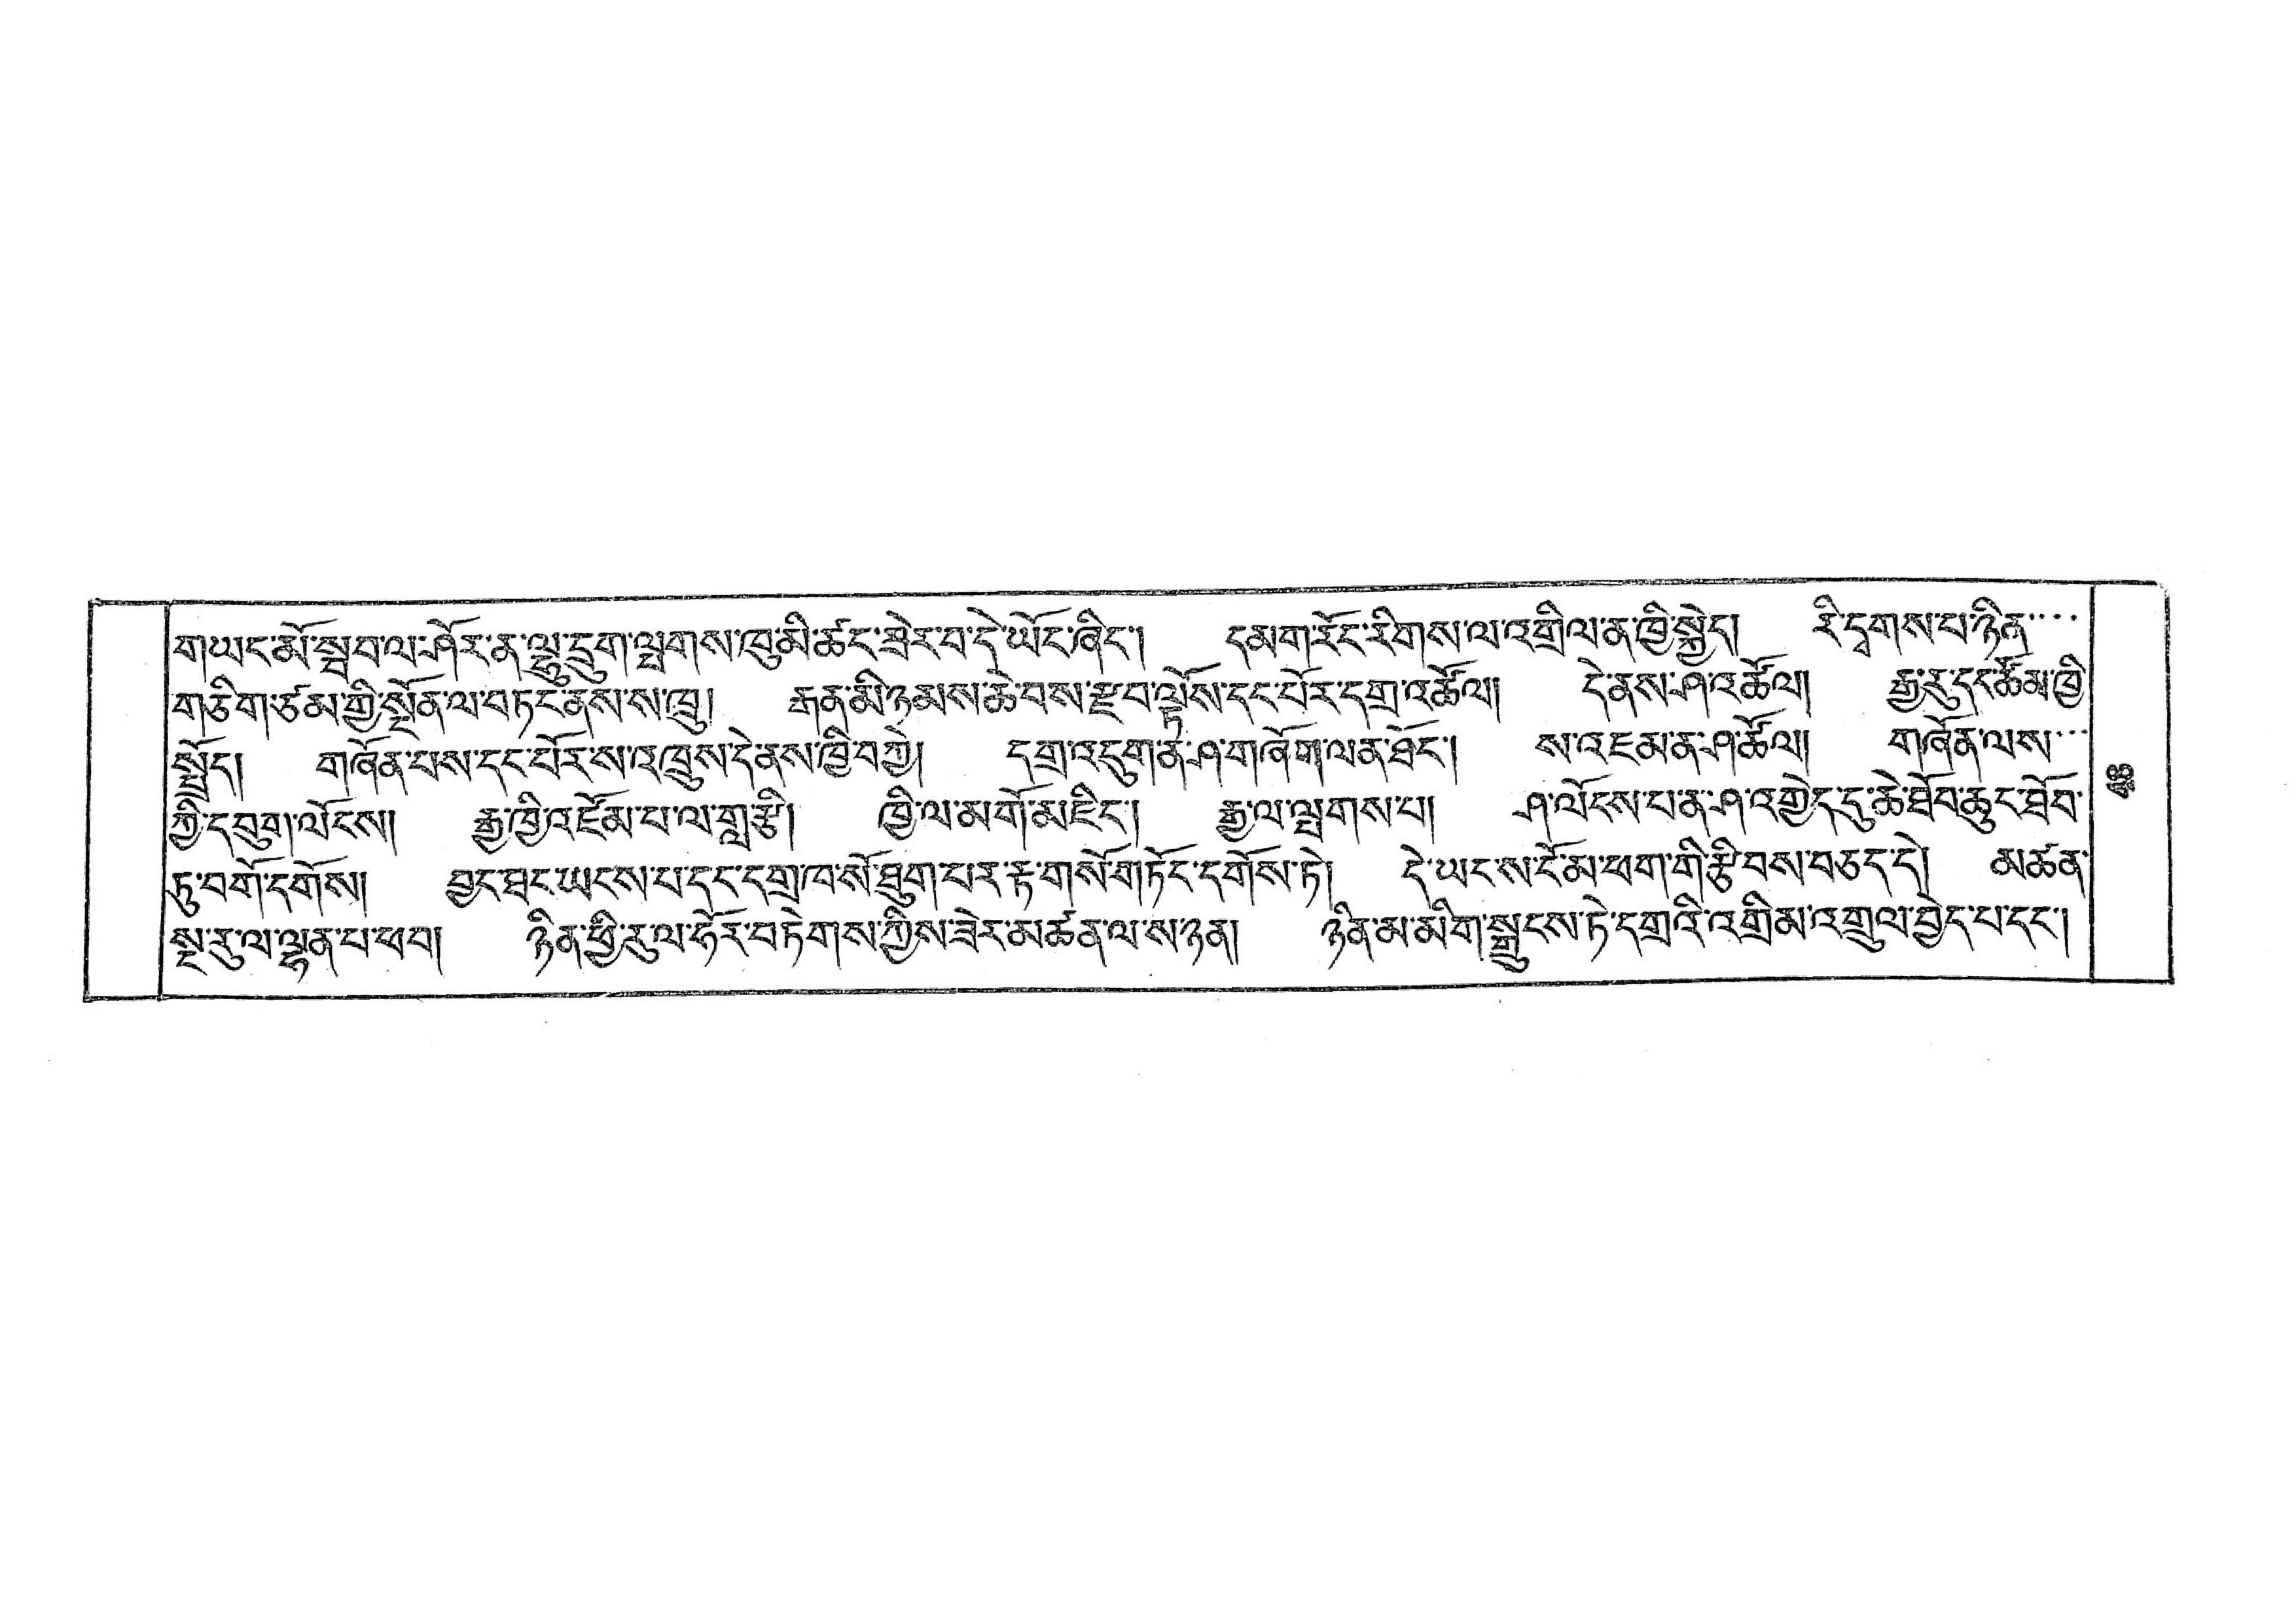གཡང་མོ་སྦབ་ལ་ཤོར་ན་ལྷུ་དྲུག་ལྤགས་ཁུ་མི་ཚད་ཟེར་བ་དེ་ཡོང་ཞིང་། དམག་རོང་རིགས་ལ་འགྲིལ་ན་ཁྱི་སྐྱེད། རི་དྭགས་པ་ཉིན་་་་
གཅིག་ཙམ་གྱི་སྔོན་ལ་བཏང་ནས་ས་ཁྲུ། རྒན་མི་ཉམས་ཆེ་བས་རྫབ་ལྟོས་དང་པོར་དགྲ་འཚོལ། དེ་ནས་ཤ་འཚོལ། རྒྱ་རུ་དང་ཚོམ་ཁྱི་
སྤྲོད། གཞོན་པས་དང་པོར་ས་འཁྲུས་དེ་ནས་ཁྱི་བཀྱེ། དགྲ་འདུགན་ཤ་གཞོག་ལན་ཐོང་། ས་འཇམ་ན་ཤ་ཚོལ། གཞོན་ལས་་་
ཀྱི་དབུག་ལོངས། རྒྱ་ཁྱི་འཛོམ་པ་ལ་གླ་རྩི། ཁྱི་ལ་མགོ་མཇིང་། རྒྱ་ལ་ལྤགས་པ། ཤ་ལོངས་པ་ན་ཤ་འགྱེད་དུ་ཆེ་ཐོབ་ཆུང་ཐོབ་
ཏུ་བགོ་དགོས། བྱང་ཐང་ཡངས་པ་དང་དགྲ་ཁ་སོ་ཐུག་པར་རྟ་གསོ་གཏོང་དགོས་ཏེ། དེ་ཡང་ས་ངོ་མ་ཕག་གི་རྩིབས་བཅད་དེ། མཚན་
སྔ་རུ་ལ་ལྷན་པ་ཕབ། ཉིན་ཕྱི་རུ་ལ་ཧོར་བཏེགས་ཀྱིས་ཟེར་མཚན་ལ་ས་ཉན། ཉིན་མི་མིག་སྒྲུངས་ཏེ་དགྲའི་འགྲིམ་འགྲུལ་བྱེད་པ་དང་།
